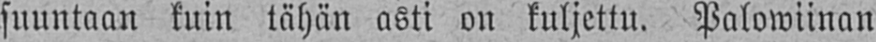suuntaan kuin tähän asti on kuljettu. Palowiinan
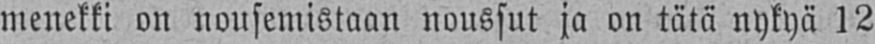menekki on nousemistaan noussut ja on tätä nykyä 12
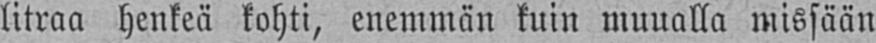litraa henkeä kohti, enemmän kuin muualla missään
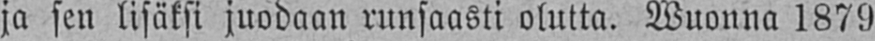ja sen lisäksi juodaan runsaasti olutta. Wuonna 1879
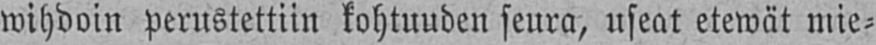wihdoin perustettiin kohtuuden seura, useat etewät mie-
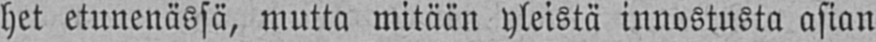het etunenässä, mutta mitään yleistä innostusta asian
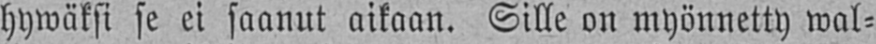hywäksi se ei saanut aikaan. Sille on myönnetty wal-
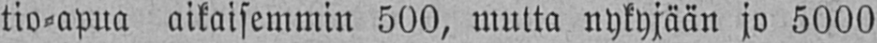tio-apua aikaisemmin 500, mutta nykyjään jo 5000
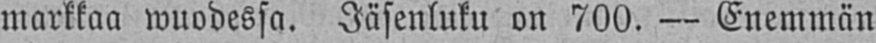markkaa wuodessa. Jäsenluku on 700. — Enemmän
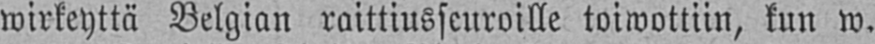wirkeyttä Belgian raittiusseuroille toiwottiin, kun w.
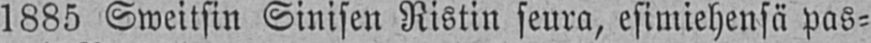1885 Sweitsin Sinisen Ristin seura, esimiehensä pas-
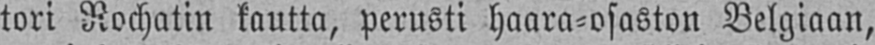tori Rochatin kautta, perusti haara-osaston Belgiaan,
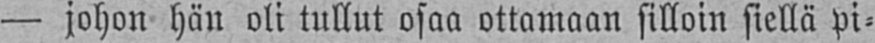— johon hän oli tullut osaa ottamaan silloin siellä pi-
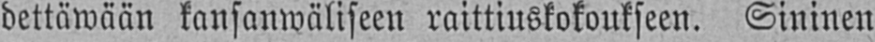dettäwään kansanwäliseen raittiuskokoukseen. Sininen
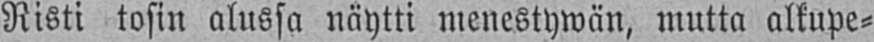Risti tosin alussa näytti menestywän, mutta alkupe-
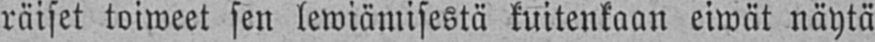räiset toiweet sen lewiämisestä kuitenkaan eiwät näytä
